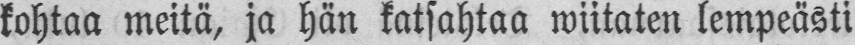kohtaa meitä, ja hän katsahtaa wiitaten lempeästi
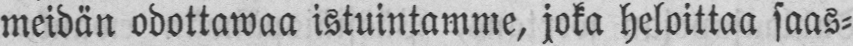meidän odottawaa istuintamme, joka heloittaa saas-
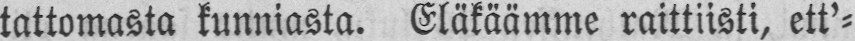tattomasta kunniasta. Eläkäämme raittiisti, ett'-
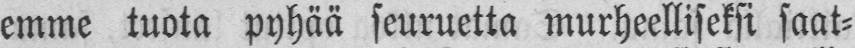emme tuota pyhää seuruetta murheelliseksi saat-
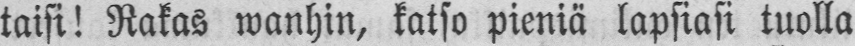taisi! Rakas wanhin, katso pieniä lapsiasi tuolla
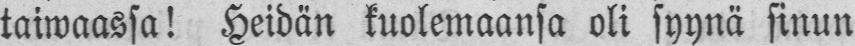taiwaassa! Heidän kuolemaansa oli syynä sinun
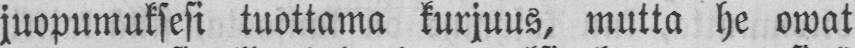juopumuksesi tuottama kurjuus, mutta he owat
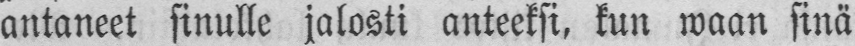antaneet sinulle jalosti anteeksi, kun waan sinä
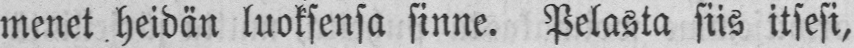menet heidän luoksensa sinne. Pelasta siis itsesi,
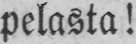pelasta!
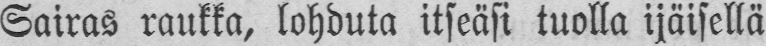Sairas raukka, lohduta itseäsi tuolla ijäisellä
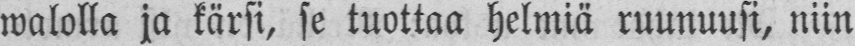walolla ja kärsi, se tuottaa helmiä ruunuusi, niin
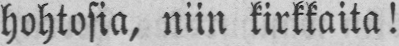hohtosia, niin kirkkaita!
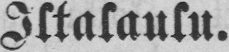Iltalaulu.
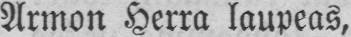Armon Herra laupeas,
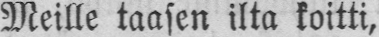Meille taasen ilta koitti,
